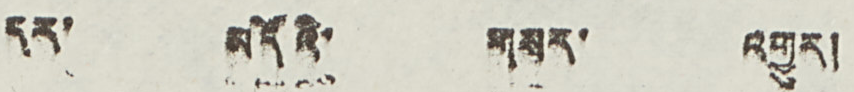དར་ མདོའི་ གསར་ འགྱུར།
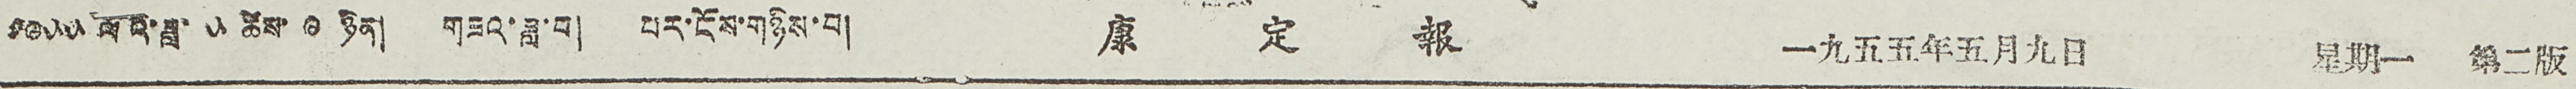༡༩༥༥ ལོའི་ཟླ་ ༥ ཚེས་ ༩ ཉིན། གཟའ་ཟླ་བ། པར་ངོས་གཉིས་པ། 康 定 報 一九五五年五月九日 星期一 第二版
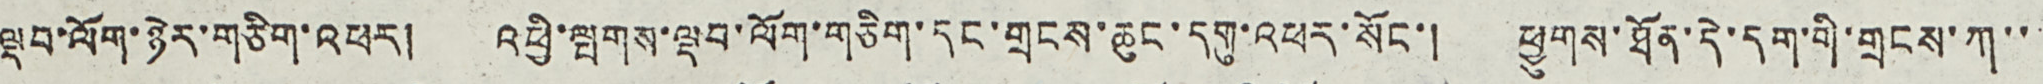ལྡབ་ལོག་ཉེར་གཅིག་འཕར། འཕྱི་ལྤགས་ལྡབ་ལོག་གཅིག་དང་གྲངས་ཆུང་དགུ་འཕར་སོང་། ཕྱུགས་ཐོན་དེ་དག་གི་གྲངས་ཀ་་
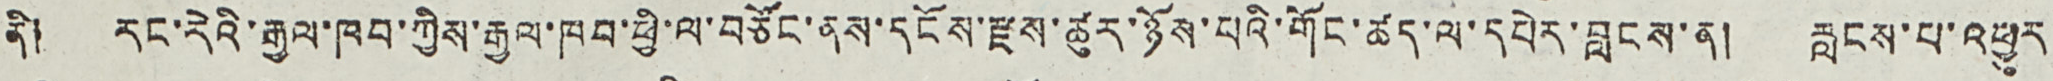ནི། རང་རེའི་རྒྱལ་ཁབ་ཀྱིས་རྒྱལ་ཁབ་ཕྱི་ལ་བཙོང་ནས་དངོས་རྫས་ཚུར་ཉོས་པའི་གོང་ཚད་ལ་དཔེར་བླངས་ན། རླངས་པ་འཕྱུར
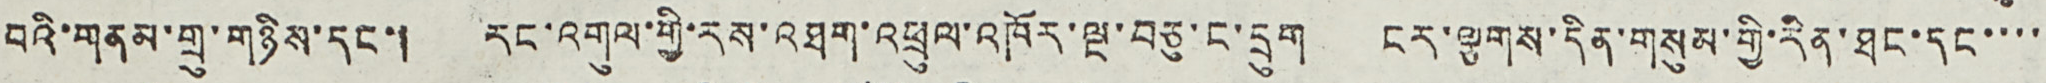བའི་གནམ་གྲུ་གཉིས་དང་། རང་འགུལ་གྱི་རས་འཐག་འཕྲུལ་འཁོར་ལྔ་བཅུ་ང་དྲུག ངར་ལྕགས་དིན་གསུམ་གྱི་རིན་ཐང་དང་་་་
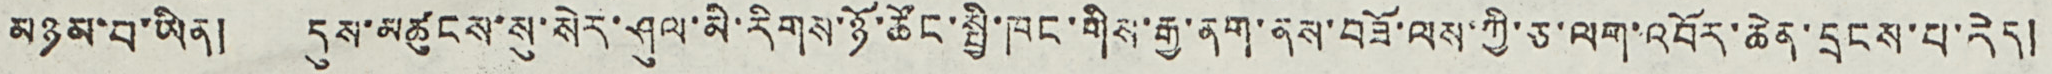མཉམ་པ་ཡིན། དུས་མཚུངས་སུ་སེར་ཤུལ་མི་རིགས་ཉོ་ཚོང་སྤྱི་ཁང་གིས་རྒྱ་ནག་ནས་བཟོ་ལས་ཀྱི་ཅ་ལག་འབོར་ཆེན་དྲངས་པ་རེད།
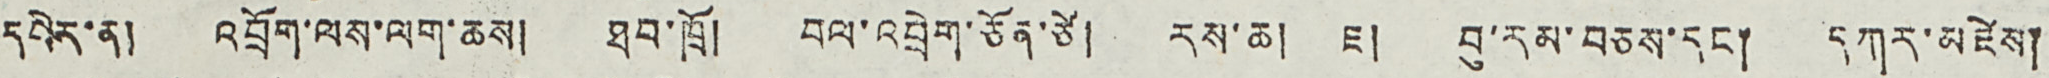དཔེར་ན། འབྲོག་ལས་ལག་ཆས། ཐབ་ཁྲོ། བལ་འབྲེག་ཅོན་ཙེ། རས་ཆ། ཇ། བུ་རམ་བཅས་དང་། དཀར་མཛེས།
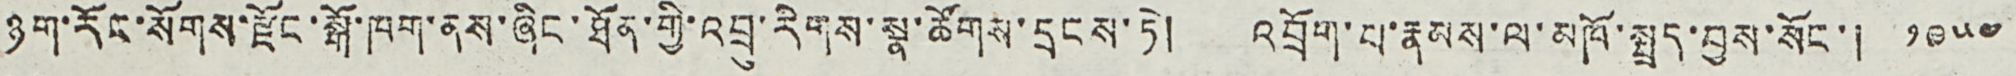ཉག་རོང་སོགས་རྫོང་སྒོ་ཁག་ནས་ཞིང་ཐོན་གྱི་འབྲུ་རིགས་སྣ་ཚོགས་དྲངས་ཏེ། འབྲོག་པ་རྣམས་ལ་མཁོ་སྤྲད་བྱས་སོང་། ༡༩༥༤
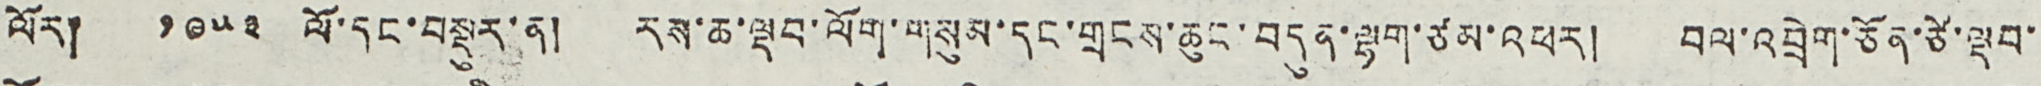ལོར། ༡༩༥༣ ལོ་དང་བསྡུར་ན། རས་ཆ་ལྡབ་ལོག་གསུམ་དང་གྲངས་ཆུང་བདུན་ལྷག་ཙམ་འཕར། བལ་འབྲེག་ཅོན་ཙེ་ལྡབ་
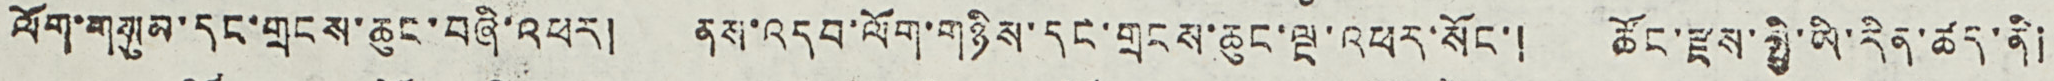ལོག་གསུམ་དང་གྲངས་ཆུང་བཞི་འཕར། ནས་འདབ་ལོག་གཉིས་དང་གྲངས་ཆུང་ལྔ་འཕར་སོང་། ཚོང་རྫས་སྤྱི་ཡི་རིན་ཚད་ནི།
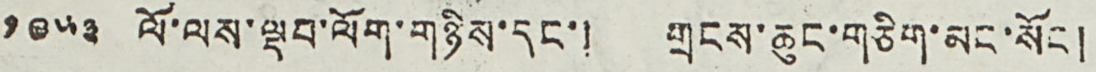༡༩༥༣ ལོ་ལས་ལྡབ་ལོག་གཉིས་དང་། གྲངས་ཆུང་གཅིག་མང་སོང །
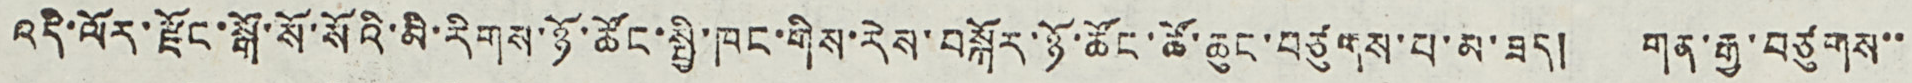འདི་ལོར་རྫོང་སྒོ་སོ་སོའི་མི་རིགས་ཉོ་ཚོང་སྤྱི་ཁང་གིས་རེས་བསྐོར་ཉོ་ཚོང་ཚོ་ཆུང་བཙུགས་པ་མ་ཟད། གན་རྒྱ་བཙུགས་་
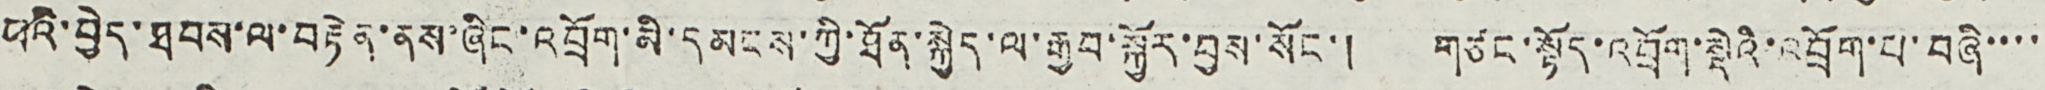པའི་བྱེད་ཐབས་ལ་བརྟེན་ནས་ཞིང་འབྲོག་མི་དམངས་ཀྱི་ཐོན་སྐྱེད་ལ་རྒྱབ་སྐྱོར་བྱས་སོང་། གཙང་སྟོད་འབྲོག་སྡེའི་འབྲོག་པ་བཞི་་་་
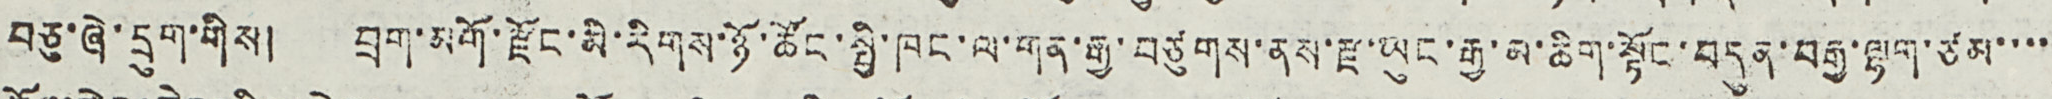བཅུ་ཞེ་དྲུག་གིས། བྲག་མགོ་རྫོང་མི་རིགས་ཉོ་ཚོང་སྤྱི་ཁང་ལ་གན་རྒྱ་བཙུགས་ནས་རྫ་ཡུང་རྒྱ་མ་ཆིག་སྟོང་བདུན་བརྒྱ་ལྷག་ཙམ་་་་
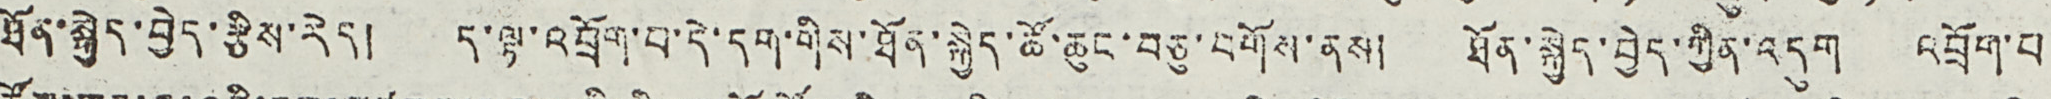ཐོན་སྐྱེད་བྱེད་རྩིས་རེད། ད་ལྟ་འབྲོག་པ་དེ་དག་གིས་ཐོན་སྐྱེད་ཚོ་ཆུང་བཅུ་བགོས་ནས། ཐོན་སྐྱེད་བྱེད་ཀྱིན་འདུག འབྲོག་པ
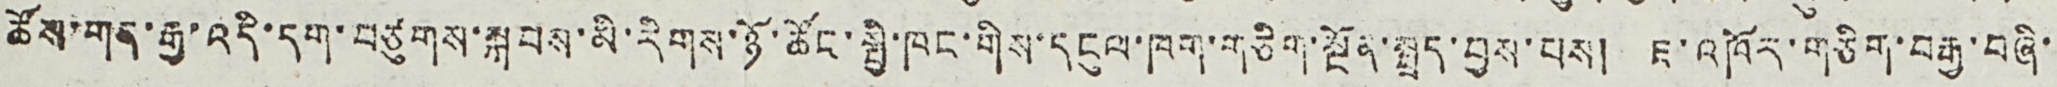ཚོས་གན་རྒྱ་འདི་དག་བཙུགས་སྐབས་མི་རིགས་ཉོ་ཚོང་སྤྱི་ཁང་གིས་དངུལ་ཁག་གཅིག་སྔོན་སྤྲད་བྱས་པས། ཇ་འཁོར་གཅིག་བརྒྱ་བཞི་
